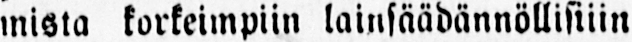mista korkeimpiin lainsäädännöllisiiin
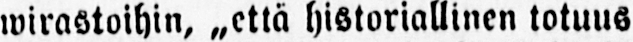wirastoihin, „että historiallinen totuus
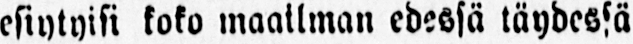esiytyisi koko maailman edessä täydessä
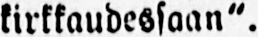kirkkaudessaan".
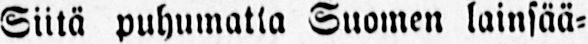Siitä puhumatta Suomen lainsää-
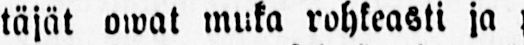täjät owat muka rohkeasti ja päättä-
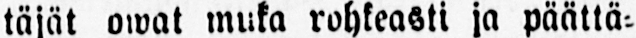wästi saattaneet selwän ja epäilemät-
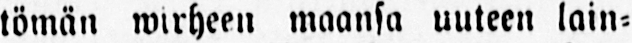tömän wirheen maansa uuteen lain-
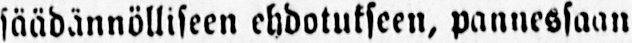säädännölliseen ehdotukseen, pannessaan
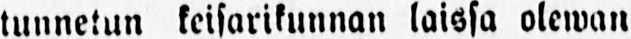tunnetun keisarikunnan laissa olewan
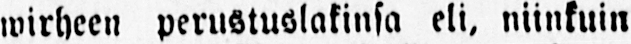wirheen perustuslakinsa eli, niinkuin
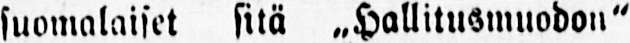suomalaiset sitä ˶Hallitusmuodon"
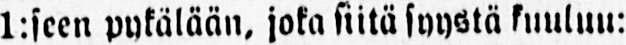1:seen pykälään, joka siitä syystä kuuluu:
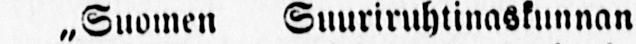˶Suomen Suuriruhtinaskunnan
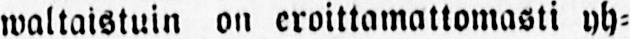waltaistuin on, eroittamattomasti yh-
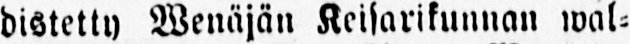distetty Wenäjän Keisarikunnan wal-
